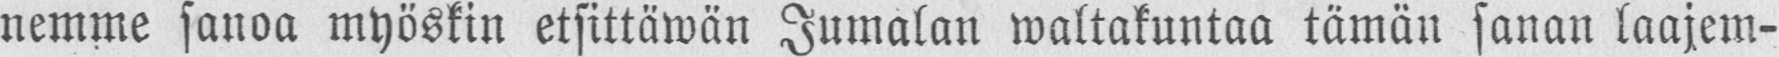nemme sanoa myöskin etsittäwän Jumalan waltakuntaa tämän sanan laajem-
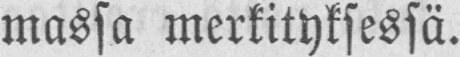massa merkityksessä.
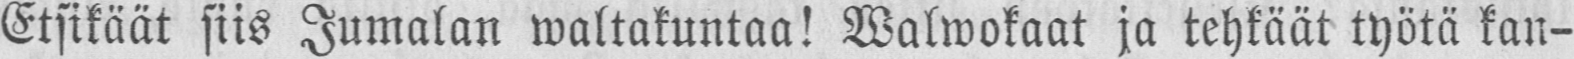Etsikäät siis Jumalan waltakuntaa! Walwokaat ja tehkäät työtä kan-
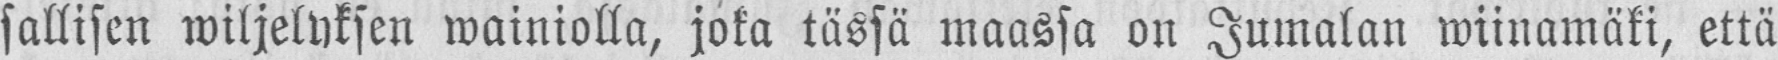sallisen wiljelyksen wainiolla, joka tässä maassa on Jumalan wiinamäki, että
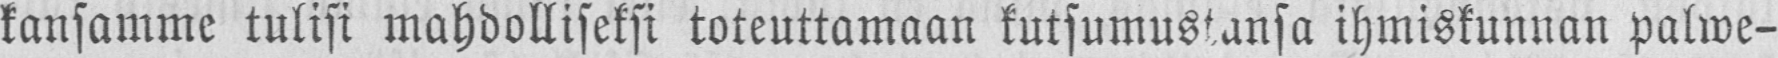kansamme tulisi mahdolliseksi toteuttamaan kutsumustansa ihmiskunnan palwe-
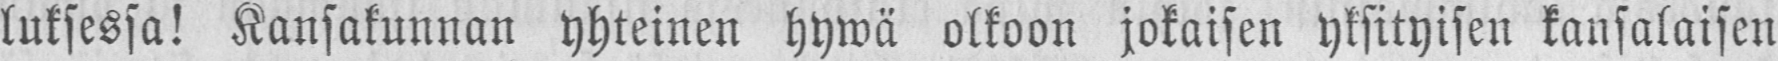luksessa! Kansakunnan yhteinen hywä olkoon jokaisen yksityisen kansalaisen
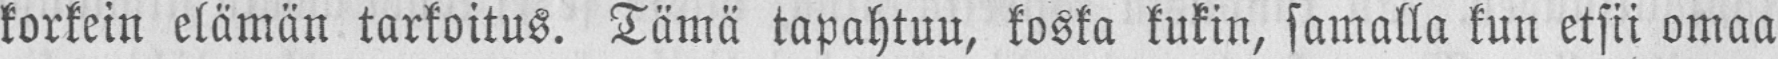korkein elämän tarkoitus. Tämä tapahtuu, koska kukin, samalla kun etsii omaa
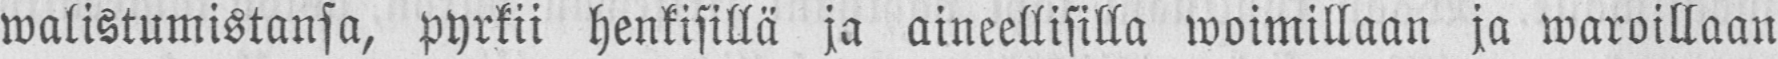walistumistansa, pyrkii henkisillä ja aineellisilla woimillaan ja waroillaan
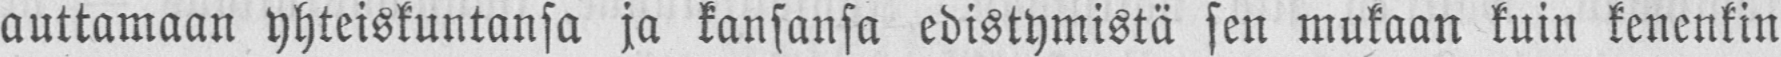auttamaan yhteiskuntansa ja kansansa edistymistä sen mukaan kuin kenenkin
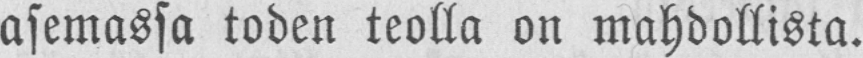asemassa toden teolla on mahdollista.
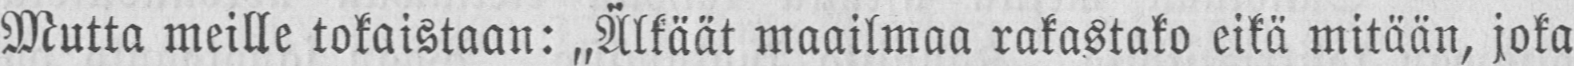Mutta meille tokaistaan: „Älkäät maailmaa rakastako eikä mitään, joka
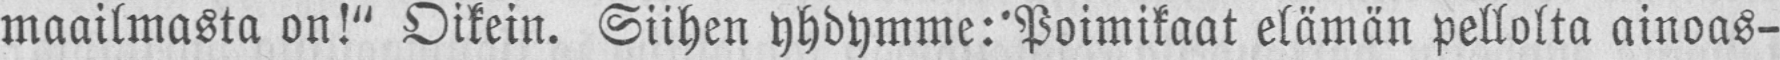maailmasta on!" Oikein. Siihen yhdymme: Poimikaat elämän pellolta ainoas-
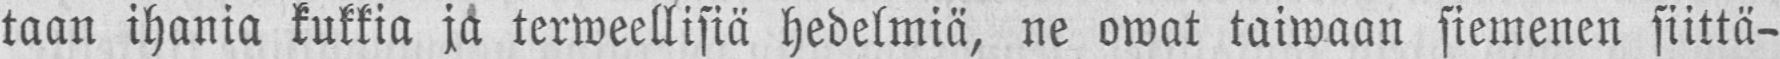taan ihania kukkia ja terweellisiä hedelmiä, ne owat taiwaan siemenen siittä-
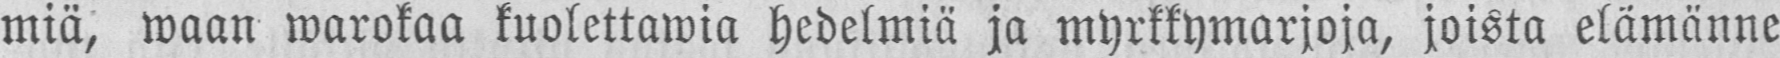miä, waan warokaa kuolettawia hedelmiä ja myrkkymarjoja, joista elämänne
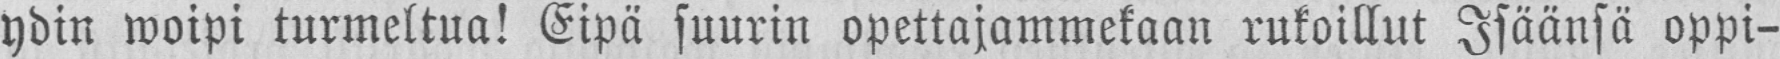ydin woipi turmeltua! Eipä suurin opettajammekaan rukoillut Isäänsä oppi-
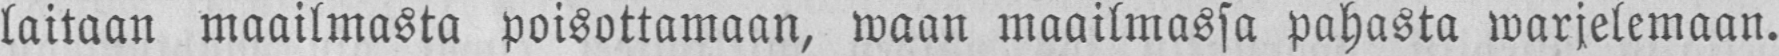laitaan maailmasta poisottamaan, waan maailmassa pahasta warjelemaan.
